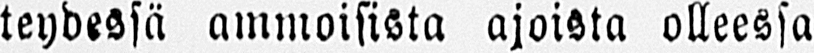teydessä ammoisista ajoista olleessa
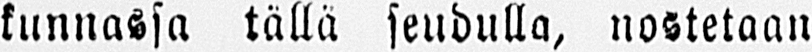kunnassa tällä seudulla, nostetaan
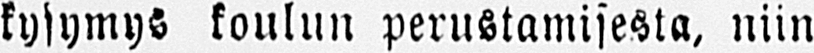kysymys koulun perustamisesta, niin
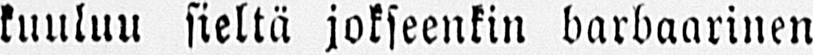kuuluu sieltä jokseenkin barbaarinen
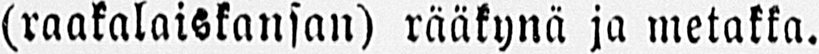(raakalaiskansan) rääkynä ja metakka.
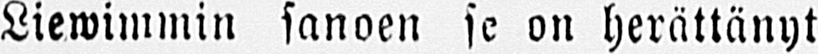Liewimmin sanoen se on herättänyt
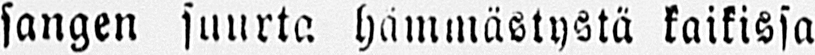sangen suurta hämmästystä kaikissa
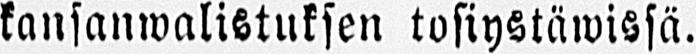kansanwalistuksen tosiystäwissä.
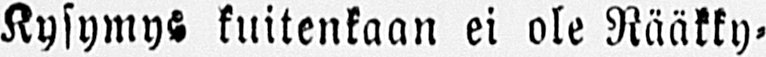Kysymys kuitenkaan ei ole Rääkky-
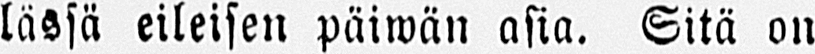lässä eileisen päiwän asia. Sitä on
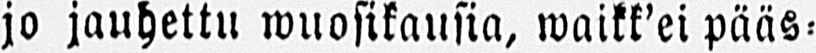jo jauhettu wuosikausia, waikk’ei pääs-
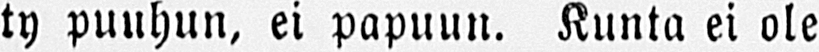ty puuhun, ei papuun. Kunta ei ole
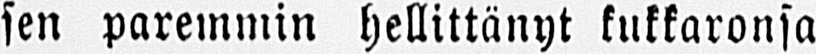sen paremmin hellittänyt kukkaronsa
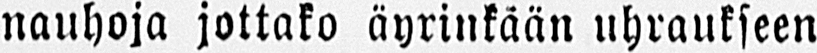nauhoja jottako äyrinkään uhraukseen
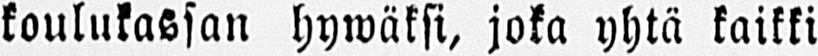koulukassan hywäksi, joka yhtä kaikki
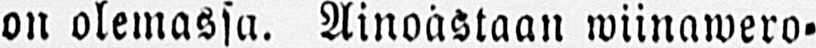on olemassa. Ainoastaan wiinawero-
